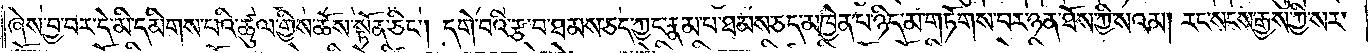ཞེས་བྱ་བར་དེ་མི་དམིགས་པའི་ཚུལ་གྱིས་ཆོས་སྟོན་ཅིང༌། དགེ་བའི་རྩ་བ་ཐམས་ཅད་ཀྱང་རྣམ་པ་ཐམས་ཅད་མཁྱེན་པ་ཉིད་མ་གཏོགས་པར་ཉན་ཐོས་ཀྱི་སའམ། རང་སངས་རྒྱས་ཀྱི་སར་
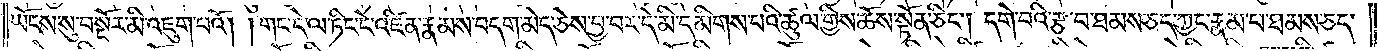ཡོངས་སུ་བསྔོར་མི་འཇུག་པའོ། །གང་དེ་ལ་ཏིང་ངེ་འཛིན་རྣམས་བདག་མེད་ཅེས་བྱ་བར་དེ་མི་དམིགས་པའི་ཚུལ་གྱིས་ཆོས་སྟོན་ཅིང༌། དགེ་བའི་རྩ་བ་ཐམས་ཅད་ཀྱང་རྣམ་པ་ཐམས་ཅད་
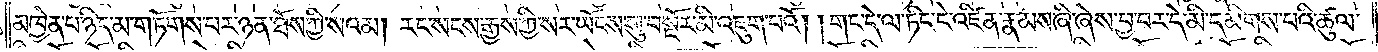མཁྱེན་པ་ཉིད་མ་གཏོགས་པར་ཉན་ཐོས་ཀྱི་སའམ། རང་སངས་རྒྱས་ཀྱི་སར་ཡོངས་སུ་བསྔོར་མི་འཇུག་པའོ། །གང་དེ་ལ་ཏིང་ངེ་འཛིན་རྣམས་ཞི་ཞེས་བྱ་བར་དེ་མི་དམིགས་པའི་ཚུལ་
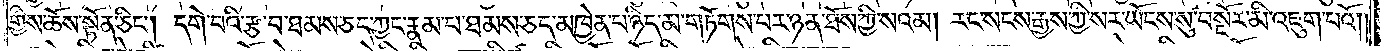གྱིས་ཆོས་སྟོན་ཅིང༌། དགེ་བའི་རྩ་བ་ཐམས་ཅད་ཀྱང་རྣམ་པ་ཐམས་ཅད་མཁྱེན་པ་ཉིད་མ་གཏོགས་པར་ཉན་ཐོས་ཀྱི་སའམ། རང་སངས་རྒྱས་ཀྱི་སར་ཡོངས་སུ་བསྔོར་མི་འཇུག་པའོ། །
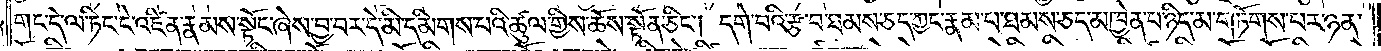གང་དེ་ལ་ཏིང་ངེ་འཛིན་རྣམས་སྟོང་ཞེས་བྱ་བར་དེ་མི་དམིགས་པའི་ཚུལ་གྱིས་ཆོས་སྟོན་ཅིང༌། དགེ་བའི་རྩ་བ་ཐམས་ཅད་ཀྱང་རྣམ་པ་ཐམས་ཅད་མཁྱེན་པ་ཉིད་མ་གཏོགས་པར་ཉན་
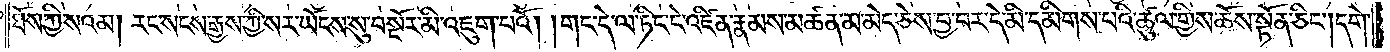ཐོས་ཀྱི་སའམ། རང་སངས་རྒྱས་ཀྱི་སར་ཡོངས་སུ་བསྔོར་མི་འཇུག་པའོ། །གང་དེ་ལ་ཏིང་ངེ་འཛིན་རྣམས་མཚན་མ་མེད་ཅེས་བྱ་བར་དེ་མི་དམིགས་པའི་ཚུལ་གྱིས་ཆོས་སྟོན་ཅིང༌། དགེ་
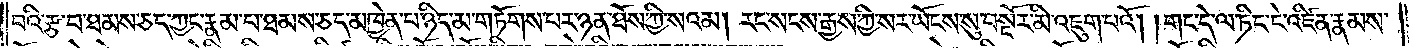བའི་རྩ་བ་ཐམས་ཅད་ཀྱང་རྣམ་པ་ཐམས་ཅད་མཁྱེན་པ་ཉིད་མ་གཏོགས་པར་ཉན་ཐོས་ཀྱི་སའམ། རང་སངས་རྒྱས་ཀྱི་སར་ཡོངས་སུ་བསྔོར་མི་འཇུག་པའོ། །གང་དེ་ལ་ཏིང་ངེ་འཛིན་རྣམས་
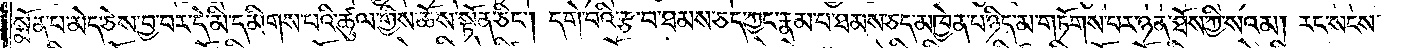སྨོན་པ་མེད་ཅེས་བྱ་བར་དེ་མི་དམིགས་པའི་ཚུལ་གྱིས་ཆོས་སྟོན་ཅིང༌། དགེ་བའི་རྩ་བ་ཐམས་ཅད་ཀྱང་རྣམ་པ་ཐམས་ཅད་མཁྱེན་པ་ཉིད་མ་གཏོགས་པར་ཉན་ཐོས་ཀྱི་སའམ། རང་སངས་
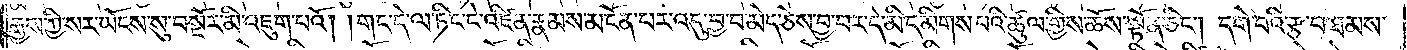རྒྱས་ཀྱི་སར་ཡོངས་སུ་བསྔོར་མི་འཇུག་པའོ། །གང་དེ་ལ་ཏིང་ངེ་འཛིན་རྣམས་མངོན་པར་འདུ་བྱ་བ་མེད་ཅེས་བྱ་བར་དེ་མི་དམིགས་པའི་ཚུལ་གྱིས་ཆོས་སྟོན་ཅིང༌། དགེ་བའི་རྩ་བ་ཐམས་
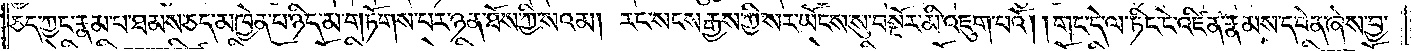ཅད་ཀྱང་རྣམ་པ་ཐམས་ཅད་མཁྱེན་པ་ཉིད་མ་གཏོགས་པར་ཉན་ཐོས་ཀྱི་སའམ། རང་སངས་རྒྱས་ཀྱི་སར་ཡོངས་སུ་བསྔོར་མི་འཇུག་པའོ། །གང་དེ་ལ་ཏིང་ངེ་འཛིན་རྣམས་དབེན་ཞེས་བྱ་
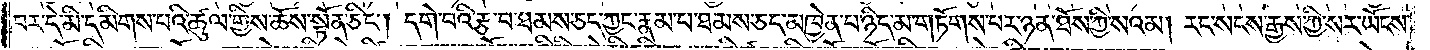བར་དེ་མི་དམིགས་པའི་ཚུལ་གྱིས་ཆོས་སྟོན་ཅིང༌། དགེ་བའི་རྩ་བ་ཐམས་ཅད་ཀྱང་རྣམ་པ་ཐམས་ཅད་མཁྱེན་པ་ཉིད་མ་གཏོགས་པར་ཉན་ཐོས་ཀྱི་སའམ། རང་སངས་རྒྱས་ཀྱི་སར་ཡོངས་
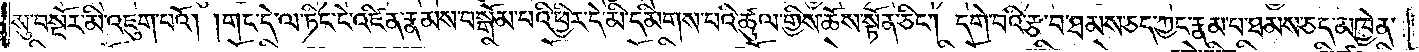སུ་བསྔོར་མི་འཇུག་པའོ། །གང་དེ་ལ་ཏིང་ངེ་འཛིན་རྣམས་བསྒོམ་པའི་ཕྱིར་དེ་མི་དམིགས་པའི་ཚུལ་གྱིས་ཆོས་སྟོན་ཅིང༌། དགེ་བའི་རྩ་བ་ཐམས་ཅད་ཀྱང་རྣམ་པ་ཐམས་ཅད་མཁྱེན་
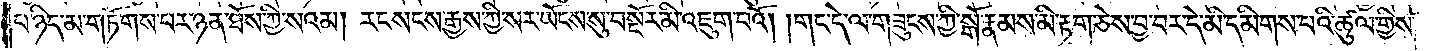པ་ཉིད་མ་གཏོགས་པར་ཉན་ཐོས་ཀྱི་སའམ། རང་སངས་རྒྱས་ཀྱི་སར་ཡོངས་སུ་བསྔོར་མི་འཇུག་པའོ། །གང་དེ་ལ་གཟུངས་ཀྱི་སྒོ་རྣམས་མི་རྟག་ཅེས་བྱ་བར་དེ་མི་དམིགས་པའི་ཚུལ་གྱིས་
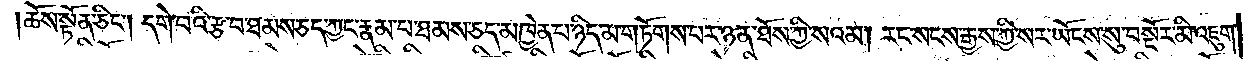ཆོས་སྟོན་ཅིང༌། དགེ་བའི་རྩ་བ་ཐམས་ཅད་ཀྱང་རྣམ་པ་ཐམས་ཅད་མཁྱེན་པ་ཉིད་མ་གཏོགས་པར་ཉན་ཐོས་ཀྱི་སའམ། རང་སངས་རྒྱས་ཀྱི་སར་ཡོངས་སུ་བསྔོར་མི་འཇུག་
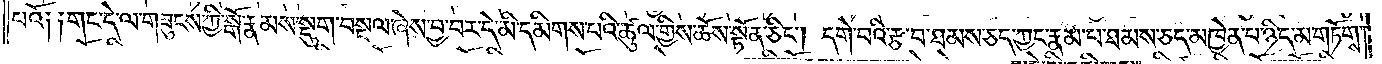པའོ༑ ༑གང་དེ་ལ་གཟུངས་ཀྱི་སྒོ་རྣམས་སྡུག་བསྔལ་ཞེས་བྱ་བར་དེ་མི་དམིགས་པའི་ཚུལ་གྱིས་ཆོས་སྟོན་ཅིང༌། དགེ་བའི་རྩ་བ་ཐམས་ཅད་ཀྱང་རྣམ་པ་ཐམས་ཅད་མཁྱེན་པ་ཉིད་མ་གཏོགས་
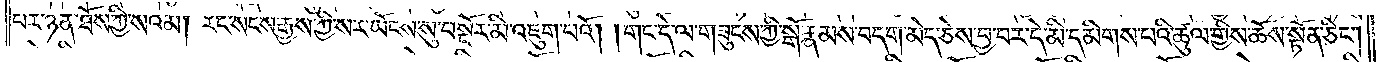པར་ཉན་ཐོས་ཀྱི་སའམ། རང་སངས་རྒྱས་ཀྱི་སར་ཡོངས་སུ་བསྔོར་མི་འཇུག་པའོ། །གང་དེ་ལ་གཟུངས་ཀྱི་སྒོ་རྣམས་བདག་མེད་ཅེས་བྱ་བར་དེ་མི་དམིགས་པའི་ཚུལ་གྱིས་ཆོས་སྟོན་ཅིང༌།
